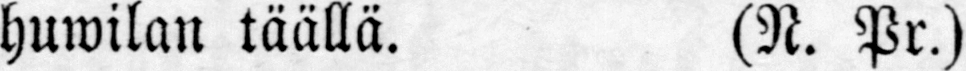huwilan täällä. (N. Pr.)
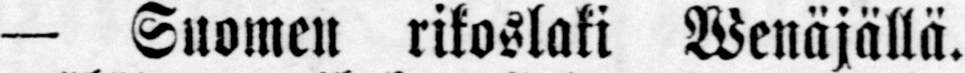— Suomen rikoslaki Wenäjällä.
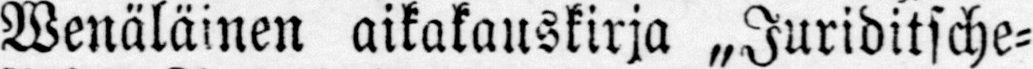Wenäläinen aikakauskirja „Juriditsche-
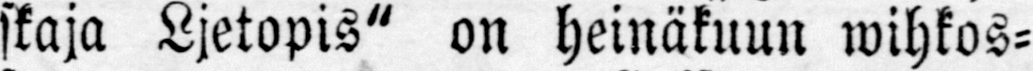skaja Ljetopis" on heinäkuun wihkos-
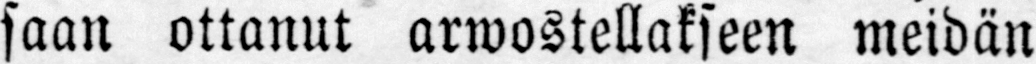saan ottanut arwostellakseen meidän
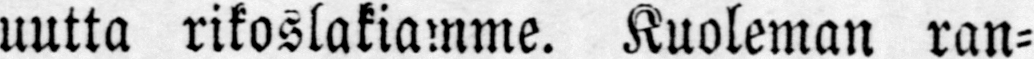uutta rikoslakiamme. Kuoleman ran-
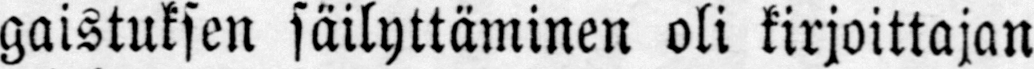gaistuksen säilyttäminen oli kirjoittajan
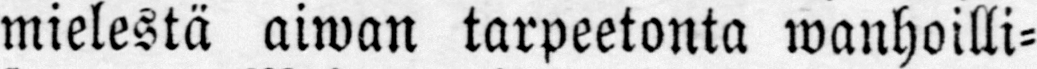mielestä aiwan tarpeetonta wanhoilli-
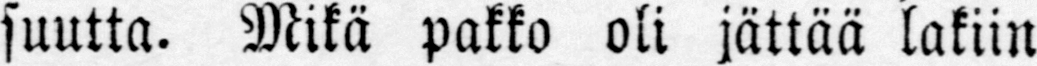suutta. Mikä pakko oli jättää lakiin
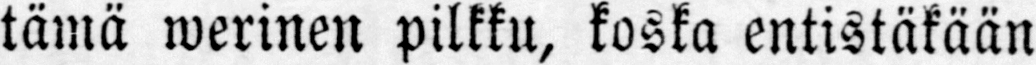tämä werinen pilkku, koska entistäkään
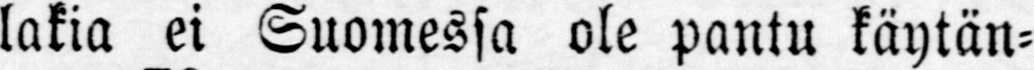lakia ei Suomessa ole pantu käytän-
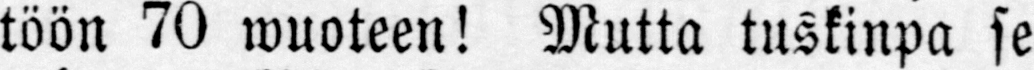töön 70 wuoteen! Mutta tuskinpa se
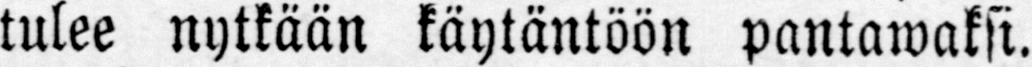tulee nytkään käytäntöön pantawaksi.
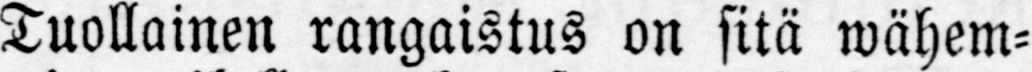Tuollainen rangaistus on sitä wähem-
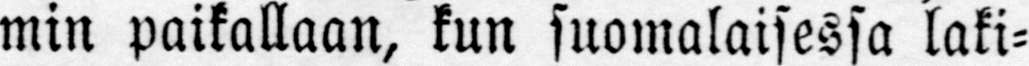min paikallaan, kun suomalaisessa laki-
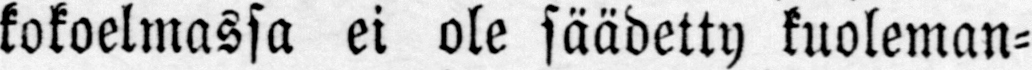kokoelmassa ei ole säädetty kuoleman-
